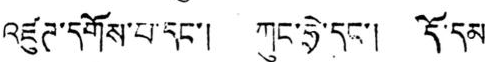འཛུཊ་དགོས་པ་དང་། ཀུང་ཧྲེ་དང་། དོ་དམ་
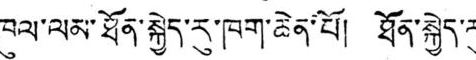ཁུལ་ལམ་ཐོན་སྐྱེད་རུ་ཁག་ཆེན་པོ། ཐོན་སྐྱེད་རུ
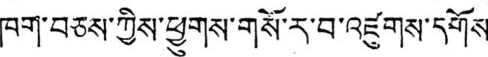ཁག་བཅས་ཀྱིས་ཕྱུགས་གསོ་ར་བ་འཛུགས་དགོས
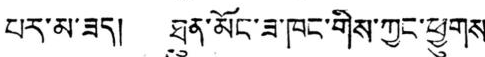པར་མ་ཟད། ཐུན་མོང་ཟ་ཁང་གིས་ཀྱང་ཕྱུགས་
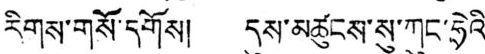རིགས་གསོ་དགོས། དུས་མཚུངས་སུ་ཀུང་ཧྲེའི་
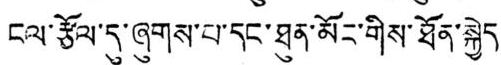ངལ་རྩོལ་དུ་ཞུགས་པ་དང་ཐུན་མོང་གིས་ཐོན་སྐྱེད
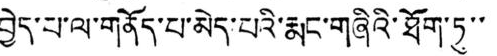བྱེད་པ་ལ་གནོད་པ་མེད་པའི་རྨང་གཞིའི་ཐོག་ཏུ་་་
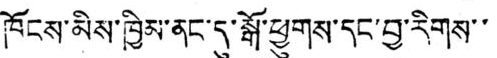ཁོངས་མིས་ཁྱིམ་ནང་དུ་སྒོ་ཕྱུགས་དང་བྱ་རིགས་་
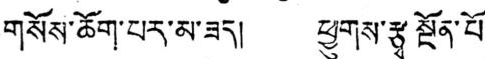གསོས་ཆོག་པར་མ་ཟད། ཕྱུགས་རྩྭ སྔོན་པོ་
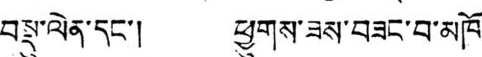བསྡུ་ལེན་དང་། ཕྱུགས་ཟས་བཟང་བ་མཁོ་
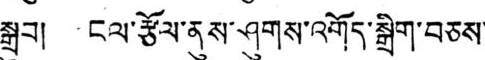སྒྲུབ། ངལ་རྩོལ་ནུས་ཤུགས་འགོད་སྒྲིག་བཅས་
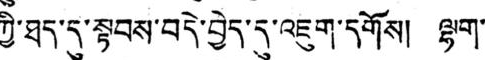ཀྱི་ཐད་དུ་སྟབས་བདེ་བྱེད་དུ་འཇུག་དགོས། ལྷག་
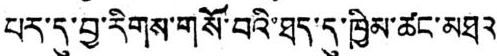པར་དུ་བྱས་རིགས་གསོ་བའི་ཐད་དུ་ཁྱིམ་ཚང་མཐའ
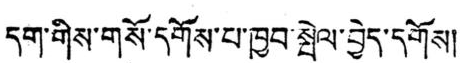དག་གིས་གསོ་དགོས་པ་ཁྱབ་སྤེལ་བྱེད་དགོས།
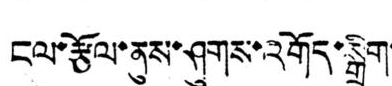ངལ་རྩོལ་ནུས་ཤུགས་འགོད་སྒྲིག་
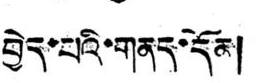བྱེད་པའི་གནད་དོན།
